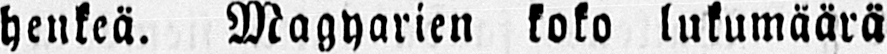henkeä. Magyarien koko lukumäärä
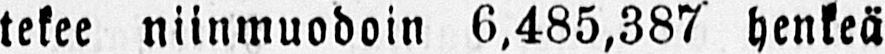tekee niinmuodoin 6,485,387 henkeä
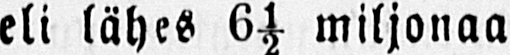eli lähes 6½ miljonaa
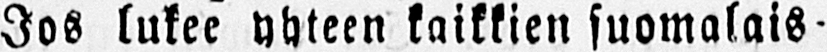Jos lukee yhteen kaikkien suomalais-
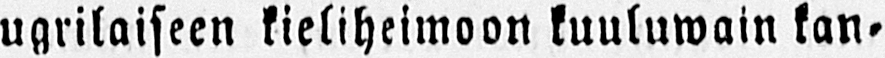ugrilaiseen kieliheimoon kuulumain kan-
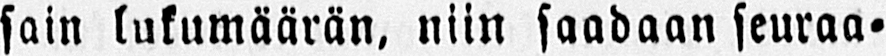sain lukumäärän, niin saadaan seuraa-
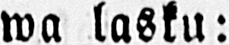wa lasku:
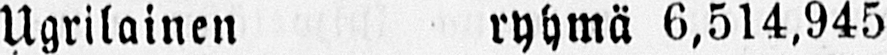Ugrilainen ryhmä 6,514,945
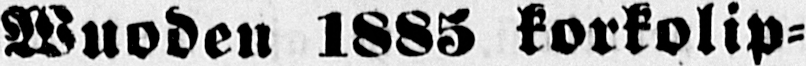Wuoden 1885 korkolip-
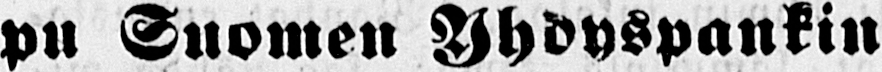pu Suomen Yhdyspankin
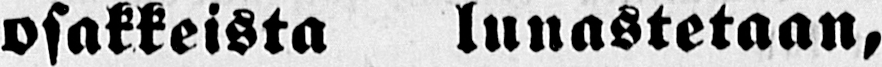osakkeista lunastetaan,
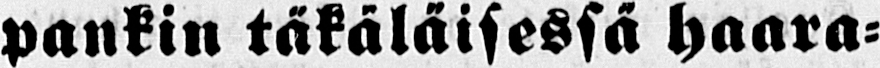pankin täkäläisessä haara-
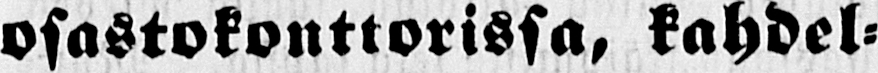osastokonttorissa, kahdel-
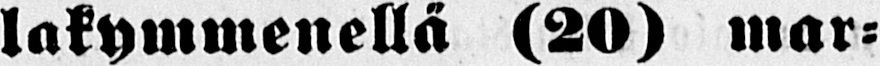lakymmenellä (20) mar-
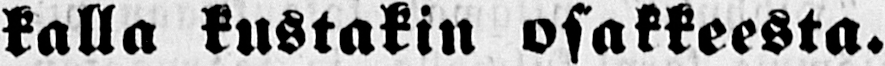kalla kustakin osakkeesta.
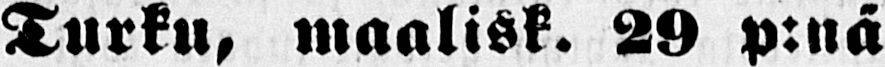Turku, maalisk. 20 p:nä
